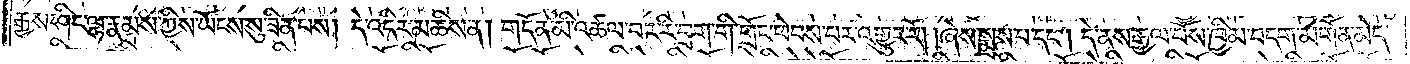རྒྱས་ཤིང་ལྷ་རྣམས་ཀྱིས་ཡོངས་སུ་ཟིན་པས། དེ་འདིར་མཆིས་ན། གདོན་མི་འཚལ་བར་རི་བྲག་གི་གྲོང་ཕེབས་པར་འགྱུར་རོ། །ཞེས་སྨྲས་པ་དང༌། དེ་ནས་རྒྱལ་པོས་ཁྱིམ་བདག་མགོན་མེད་
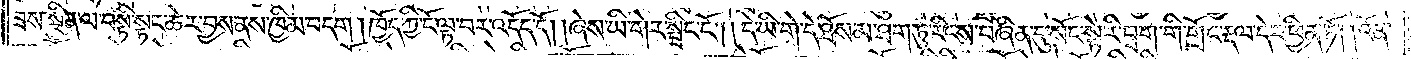ཟས་སྦྱིན་ལ་བསྟི་སྟང་ཆེར་བྱས་ནས་ཁྱིམ་བདག །ཁྱོད་ཀྱི་ངོ་ལྟ་བར་འདོད་དོ། །ཞེས་ཡི་གེར་སྤྲིང་ངོ༌། །དེ་ཡི་གེ་དེ་ཐོས་མ་ཐག་ཏུ་རིངས་བཞིན་དུ་སོང་སྟེ་རི་བྲག་གི་གྲོང་རྡལ་དེར་ཕྱིན་ཏོ། །འོན་
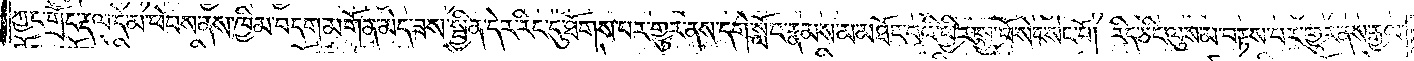ཀྱང་གྲོང་རྡལ་དེ་མ་ཕེབས་ནས་ཁྱིམ་བདག་མགོན་མེད་ཟས་སྦྱིན་དེར་རིང་དུ་ཐོགས་པར་གྱུར་ནས་དགེ་སློང་རྣམས་མ་མཐོང་བའི་ཕྱིར་སྐྱ་བོ་སེང་སེང་བོ། རིད་ཅིང་ལུས་མ་བརྟས་པར་གྱུར་ནས་རྒྱལ་
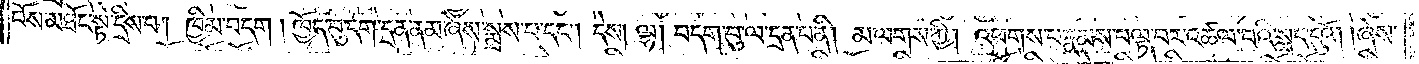པོས་མཐོང་སྟེ་དྲིས་པ། ཁྱིམ་བདག །ཁྱོད་བུ་དག་དྲན་ནམ་ཞེས་སྨྲས་པ་དང༌། དེས། ལྷ། བདག་བུ་ལ་དྲན་པ་ནི། མ་ལགས་ཀྱི། འཕགས་པ་རྣམས་བལྟ་བར་འཚལ་བའི་སླད་དུའོ། །ཞེས་
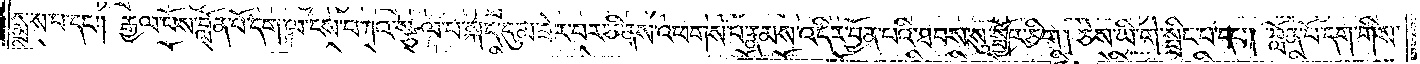སྨྲས་པ་དང༌། རྒྱལ་པོས་བློན་པོ་དག་ལ་ངས་བཀའ་སྩལ་པ་སྐད་དུ་མ་ཟེར་བར་ཅི་ནས་འཕགས་པ་རྣམས་འདིར་བྱོན་པའི་ཐབས་སུ་སྦྱོར་ཅིག །ཅེས་ཡི་གེ་སྤྲིང་པ་དང༌། བློན་པོ་དག་གིས་
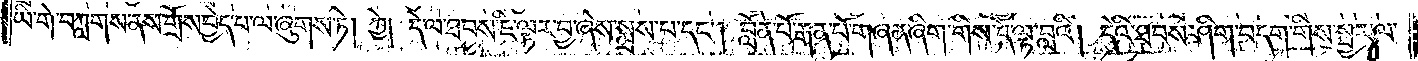ཡི་གེ་བཀླགས་ནས་གྲོས་བྱེད་པ་ལ་ཞུགས་ཏེ། ཀྱེ། དེ་ལ་ཐབས་ཇི་ལྟར་བྱ་ཞེས་སྨྲས་པ་དང༌། བློན་པོ་རྒན་པོ་གཞན་ཞིག་གིས་དེ་ལྟ་བླའི། དེའི་ཐབས་ཤིག་བདག་གིས་སྦྱར་ལ་
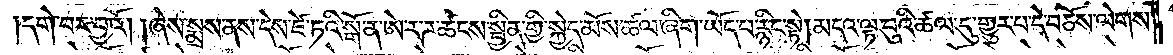དགེ་བར་བྱའོ། །ཞེས་སྨྲས་ནས་དེས་ཛེ་ཏའི་སྒོ་ན་ཨེ་ར་ཌ་ཚངས་སྦྱིན་གྱི་སྐྱེད་མོས་ཚལ་ཞིག་ཡོད་པ་རྙིང་སྟེ། མདའ་ལྟ་བུའི་ཚལ་དུ་གྱུར་པ་དེ་བཅོས་ལེགས་
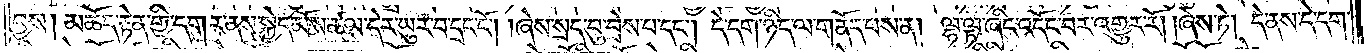བྱས། མཆོད་རྟེན་གྱི་དགར་ནས་སྐྱེད་མོས་ཚལ་དེར་ཡུར་བ་དྲང་ངོ༌། །ཞེས་སྲད་བུ་བྲེས་པ་དང༌། དེ་དག་ཉིད་ལ་གནོད་པས་ན། ལྷ་ལྟ་ཞིང་འདོང་བར་འགྱུར་རོ། །ཞེས་ཏེ། དེ་ནས་དེ་དག་
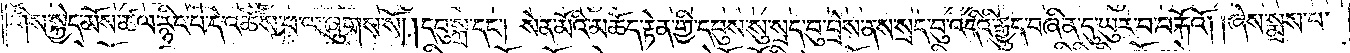གིས་སྐྱེད་མོས་ཚལ་རྙིང་པ་དེ་འཆོས་པ་ལ་ཞུགས་སོ། །དབུ་སྐྲ་དང༌། སེན་མོའི་མཆོད་རྟེན་གྱི་དབུས་སུ་སྲད་བུ་བྲེས་ནས་སྲད་བུ་འདིའི་རྒྱུད་བཞིན་དུ་ཡུར་བ་བརྐོའོ། །ཞེས་སྨྲས་པ་
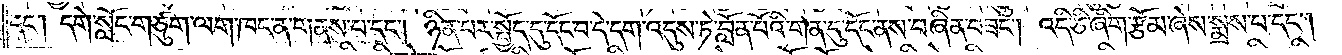དང༌། དགེ་སློང་གཙུག་ལག་ཁང་ན་གནས་པ་དང༌། ཉིན་པར་སྤྱོད་དུ་དོང་བ་དེ་དག་འདུས་ཏེ་བློན་པོའི་གན་དུ་དོང་ནས་བཞིན་བཟང༌། འདི་ཅི་ཞིག་རྩོམ་ཞེས་སྨྲས་པ་དང༌།
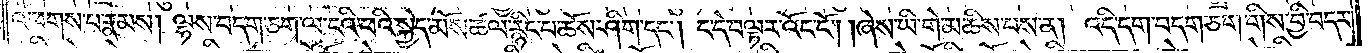འཕགས་པ་རྣམས། ལྷས་བདག་ཅག་ལ་ངའི་ཕའི་སྐྱེད་མོས་ཚལ་རྙིང་པ་ཆོས་ཤིག་དང༌། ང་དེ་བལྟར་འོང་ངོ༌། །ཞེས་ཡི་གེ་མཆིས་པས་ན། འདི་དག་བདག་ཅག་གིས་བྱི་བདར་
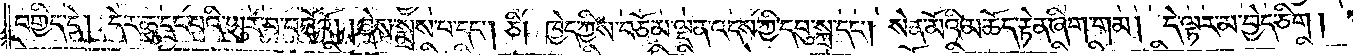བགྱིད་དེ། དེར་ཆུ་དྲང་པའི་ཡུར་བ་བརྐོའོ། །ཞེས་སྨྲས་པ་དང༌། ཅི། ཁྱེད་ཀྱིས་བཅོམ་ལྡན་འདས་ཀྱིས་དབུ་སྐྲ་དང༌། སེན་མོའི་མཆོད་རྟེན་ཞིག་གམ། དེ་ལྟར་མ་བྱེད་ཅིག །
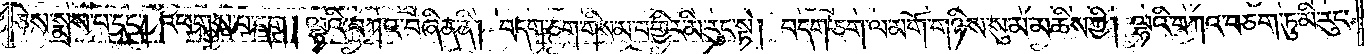ཅེས་སྨྲས་པ་དང༌། འཕགས་པ་དག །ལྷའི་བཀའ་བཞིན་ནི། བདག་ཅག་གིས་མ་བགྱིར་མི་རུང་སྟེ། བདག་ཅག་ལ་མགོ་གཉིས་སུ་མ་མཆིས་ཀྱི། ལྷའི་བཀའ་བཅག་ཏུ་མི་རུང་
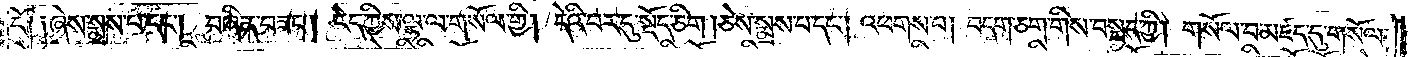ངོ༌། །ཞེས་སྨྲས་པ་དང༌། བཞིན་བཟང༌། ངེད་ཀྱིས་ལྷ་ལ་གསོལ་གྱི། དེའི་བར་དུ་སྡོད་ཅིག །ཅེས་སྨྲས་པ་དང༌། འཕགས་པ། བདག་ཅག་གིས་བསྔད་ཀྱི། གསོལ་བ་མཛད་དུ་གསོལ་
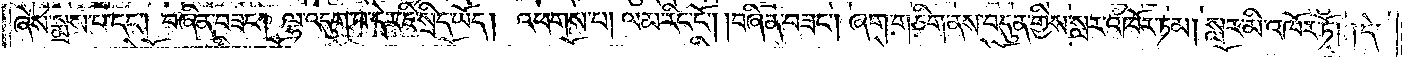ཞེས་སྨྲས་པ་དང༌། བཞིན་བཟང༌། ལྷ་འདུག་པ་དེར་ཇི་སྲིད་ཡོད། འཕགས་པ། ལམ་རིང་ངོ༌། །བཞིན་བཟང༌། ཞག་གཅིག་ནས་བདུན་གྱིས་སླར་འཁོར་ཏམ། སླར་མི་འཁོར་ཏོ། །དེ་
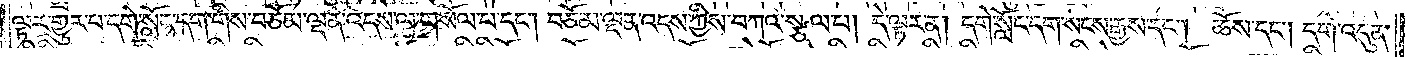ལྟར་གྱུར་པ་དགེ་སློང་དག་གིས་བཅོམ་ལྡན་འདས་ལ་གསོལ་པ་དང༌། བཅོམ་ལྡན་འདས་ཀྱིས་བཀའ་སྩལ་པ། དེ་ལྟར་ན། དགེ་སློང་དག་སངས་རྒྱས་དང༌། ཆོས་དང༌། དགེ་འདུན་
